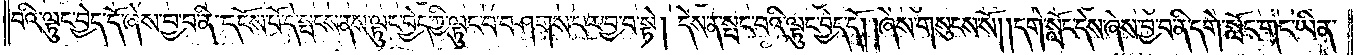པའི་ལྟུང་བྱེད་དོ་ཞེས་བྱ་བ་ནི་དངོས་པོ་དེ་སྤངས་ནས་ལྟུང་བྱེད་ཀྱི་ལྟུང་བ་བཤགས་པར་བྱ་བ་སྟེ། དེས་ན་སྤང་བའི་ལྟུང་བྱེད་དོ། །ཞེས་གསུངས་སོ། །དགེ་སློང་དེས་ཞེས་བྱ་བ་ནི་དགེ་སློང་གང་ཡིན་
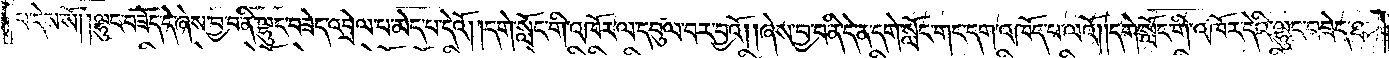པ་དེས་སོ། །ལྷུང་བཟེད་དེ་ཞེས་བྱ་བ་ནི་ལྷུང་བཟེད་འབྲེལ་པ་མེད་པ་དེའོ། །དགེ་སློང་གི་འཁོར་ལ་དབུལ་བར་བྱའོ། །ཞེས་བྱ་བ་ནི་དེ་ན་དགེ་སློང་གང་དག་འཁོད་པ་ལའོ། །དགེ་སློང་གི་འཁོར་དེའི་ལྷུང་བཟེད་ཐ་
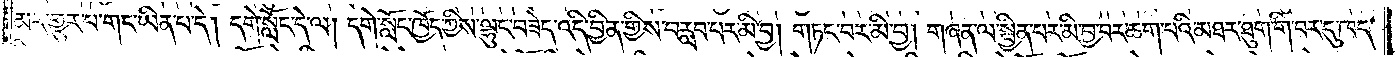མར་གྱུར་པ་གང་ཡིན་པ་དེ། དགེ་སློང་དེ་ལ། དགེ་སློང་ཁྱོད་ཀྱིས་ལྷུང་བཟེད་འདི་བྱིན་གྱིས་བརླབ་པར་མི་བྱ། གཏང་བར་མི་བྱ། གཞན་ལ་སྦྱིན་པར་མི་བྱ་བར་ཆག་པའི་མཐར་ཐུག་གི་བར་དུ་ཁད་
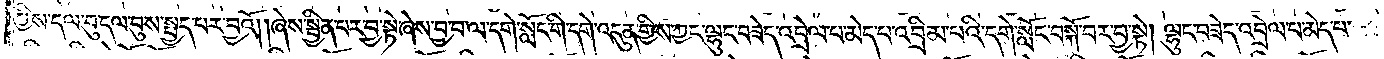ཀྱིས་དལ་བུ་དལ་བུས་སྤྱད་པར་བྱའོ། །ཞེས་སྦྱིན་པར་བྱ་སྟེ་ཞེས་བྱ་བ་ལ་དགེ་སློང་གི་དགེ་འདུན་གྱིས་ཀྱང་ལྷུང་བཟེད་འབྲེལ་པ་མེད་པ་འབྲིམ་པའི་དགེ་སློང་བསྐོ་བར་བྱ་སྟེ། ལྷུང་བཟེད་འབྲེལ་པ་མེད་པ་
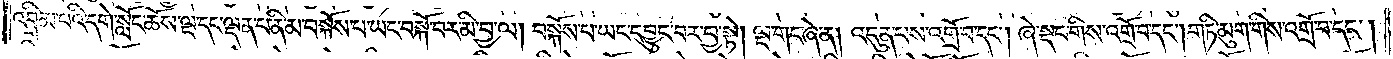འབྲིམ་པའི་དགེ་སློང་ཆོས་ལྔ་དང་ལྡན་པ་ནི་མ་བསྐོས་པ་ཡང་བསྐོ་བར་མི་བྱ་ལ། བསྐོས་པ་ཡང་དབྱུང་བར་བྱ་སྟེ། ལྔ་གང་ཞེ་ན། འདུན་པས་འགྲོ་བ་དང༌། ཞེ་སྡང་གིས་འགྲོ་བ་དང༌། གཏི་མུག་གིས་འགྲོ་བ་དང༌།
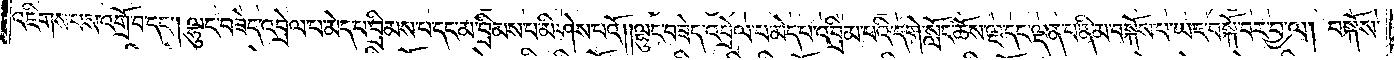འཇིགས་པས་འགྲོ་བ་དང༌། ལྷུང་བཟེད་འབྲེལ་པ་མེད་པ་བྲིམས་པ་དང་མ་བྲིམས་པ་མི་ཤེས་པའོ། །ལྷུང་བཟེད་འབྲེལ་པ་མེད་པ་འབྲིམ་པའི་དགེ་སློང་ཆོས་ལྔ་དང་ལྡན་པ་ནི་མ་བསྐོས་པ་ཡང་བསྐོ་བར་བྱ་ལ། བསྐོས་
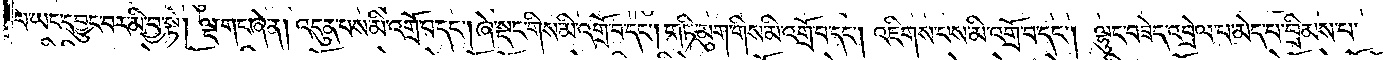པ་ཡང་དབྱུང་བར་མི་བྱ་སྟེ། ལྔ་གང་ཞེ་ན། འདུན་པས་མི་འགྲོ་བ་དང༌། ཞེ་སྡང་གིས་མི་འགྲོ་བ་དང༌། གཏི་མུག་གིས་མི་འགྲོ་བ་དང༌། འཇིགས་པས་མི་འགྲོ་བ་དང༌། ལྷུང་བཟེད་འབྲེལ་པ་མེད་པ་བྲིམས་པ་
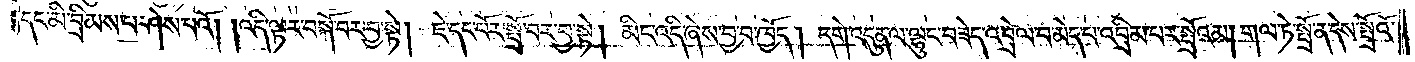དང་མི་བྲིམས་པ་ཤེས་པའོ། །འདི་ལྟར་བསྐོ་བར་བྱ་སྟེ། ཇེ་དང་པོར་སྤྲོ་བར་བྱ་སྟེ། མིང་འདི་ཞེས་བྱ་བ་ཁྱོད། དགེ་འདུན་ལ་ལྷུང་བཟེད་འབྲེལ་པ་མེད་པ་འབྲིམ་པར་སྤྲོའམ། གལ་ཏེ་སྤྲོ་ན་དེས་སྤྲོའོ་
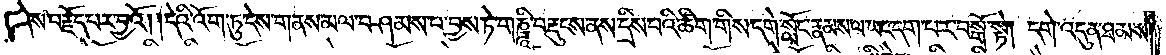ཞེས་བརྗོད་པར་བྱའོ། །དེའི་འོག་ཏུ་དེས་གནས་མལ་བཤམས་པ་བྱས་ཏེ་གཎྜཱི་བརྡུངས་ནས་དྲིས་པའི་ཚིག་གིས་དགེ་སློང་རྣམས་ལ་ཡང་དག་པར་བསྒོ་སྟེ། དགེ་འདུན་ཐམས་
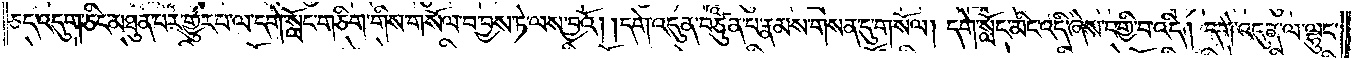ཅད་འདུག་ཅིང་མཐུན་པར་གྱུར་པ་ལ་དགེ་སློང་གཅིག་གིས་གསོལ་བ་བྱས་ཏེ་ལས་བྱའོ། །དགེ་འདུན་བཙུན་པ་རྣམས་གསན་དུ་གསོལ། དགེ་སློང་མིང་འདི་ཞེས་བགྱི་བ་འདི། དགེ་འདུན་ལ་ལྷུང་
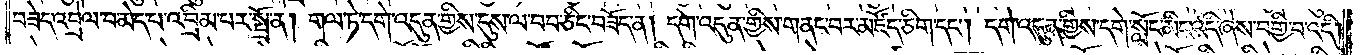བཟེད་འབྲེལ་བ་མེད་པ་འབྲིམ་པར་སྤྲོ་ན། གལ་ཏེ་དགེ་འདུན་གྱིས་དུས་ལ་བབ་ཅིང་བཟོད་ན། དགེ་འདུན་གྱིས་གནང་བར་མཛོད་ཅིག་དང༌། དགེ་འདུན་གྱིས་དགེ་སློང་མིང་འདི་ཞེས་བགྱི་བ་འདི།
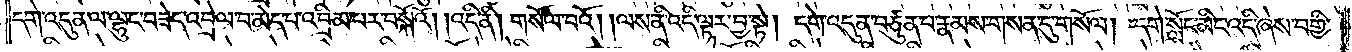དགེ་འདུན་ལ་ལྷུང་བཟེད་འབྲེལ་བ་མེད་པ་འབྲིམ་པར་བསྐོའོ། །འདི་ནི། གསོལ་བའོ། །ལས་ནི་འདི་ལྟར་བྱ་སྟེ། དགེ་འདུན་བཙུན་པ་རྣམས་གསན་དུ་གསོལ། དགེ་སློང་མིང་འདི་ཞེས་བགྱི་
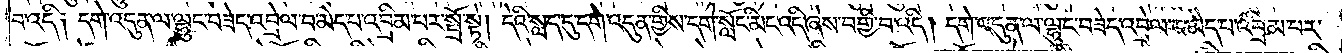བ་འདི༑ དགེ་འདུན་ལ་ལྷུང་བཟེད་འབྲེལ་བ་མེད་པ་འབྲིམ་པར་སྤྲོ་སྟེ། དེའི་སླད་དུ་དགེ་འདུན་གྱིས་དགེ་སློང་མིང་འདི་ཞེས་བགྱི་བ་འདི། དགེ་འདུན་ལ་ལྷུང་བཟེད་འབྲེལ་བ་མེད་པ་འབྲིམ་པར་
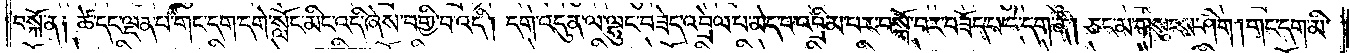བསྐོ་ན། ཚེ་དང་ལྡན་པ་གང་དག་དགེ་སློང་མིང་འདི་ཞེས་བགྱི་བ་འདི། དགེ་འདུན་ལ་ལྷུང་བཟེད་འབྲེལ་པ་མེད་པ་འབྲིམ་པར་བསྐོ་བར་བཟོད་པ་དེ་དག་ནི། ཅང་མ་གསུངས་ཤིག །གང་དག་མི་
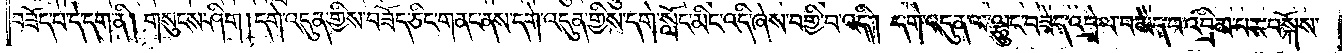བཟོད་པ་དེ་དག་ནི། གསུངས་ཤིག །དགེ་འདུན་གྱིས་བཟོད་ཅིང་གནང་ནས་དགེ་འདུན་གྱིས་དགེ་སློང་མིང་འདི་ཞེས་བགྱི་བ་འདི། དགེ་འདུན་ལ་ལྷུང་བཟེད་འབྲེལ་བ་མེད་པ་འབྲིམ་པར་བསྐོས་
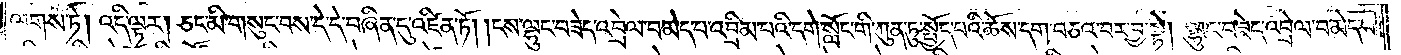ལགས་ཏེ། འདི་ལྟར། ཅང་མི་གསུང་བས་དེ་དེ་བཞིན་དུ་འཛིན་ཏོ། །ངས་ལྷུང་བཟེད་འབྲེལ་བ་མེད་པ་འབྲིམ་པའི་དགེ་སློང་གི་ཀུན་ཏུ་སྤྱོད་པའི་ཆོས་དག་བཅའ་བར་བྱ་སྟེ། ལྷུང་བཟེད་འབྲེལ་བ་མེད་པ་
